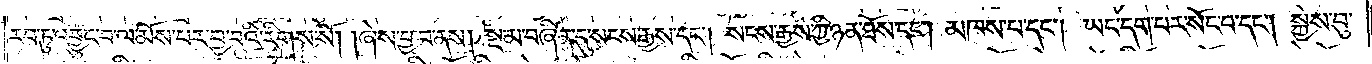རབ་ཏུ་འབྱུང་བ་ལ་མོས་པར་བྱ་བའི་རིགས་སོ། །ཞེས་བྱ་བ་ནས། སྔ་མ་བཞིན་དུ་སངས་རྒྱས་དང༌། སངས་རྒྱས་ཀྱི་ཉན་ཐོས་དང༌། མཁས་པ་དང༌། ཡང་དག་པར་སོང་བ་དང༌། སྐྱེས་བུ་
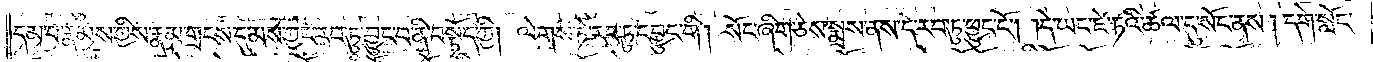དམ་པ་རྣམས་ཀྱིས་རྣམ་གྲངས་དུ་མས་ཀྱང་རབ་ཏུ་བྱུང་བ་ནི་བསྟོད་ཀྱི། ལེགས་ཏེ་རབ་ཏུ་དབྱུང་གི། སོང་ཞིག་ཅེས་སྨྲས་ནས་དེ་རབ་ཏུ་ཕྱུང་ངོ༌། །དེ་ཡང་ཛེ་ཏའི་ཚལ་དུ་སོང་ནས། དགེ་སློང་
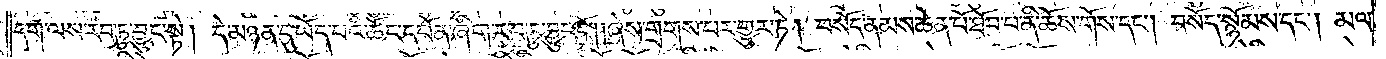དག་ལས་རབ་ཏུ་བྱུང་སྟེ། དེ་མཉན་དུ་ཡོད་པའི་ཚོང་དཔོན་ཞིག་རབ་ཏུ་བྱུང་ངོ༌། །ཞེས་གྲགས་པར་གྱུར་ཏེ། བསོད་ནམས་ཆེན་པོ་ཐོབ་པ་ནི་ཆོས་གོས་དང༌། བསོད་སྙོམས་དང༌། མལ་
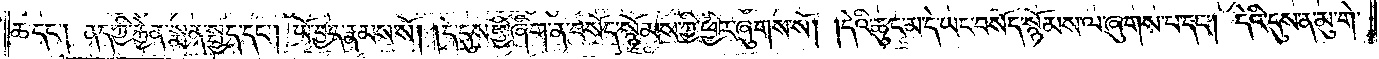ཆ་དང༌། ནད་ཀྱི་རྐྱེན་སྨན་སྤྱད་དང༌། ཡོ་བྱད་རྣམས་སོ། །དེ་དུས་ཕྱི་ཞིག་ན་བསོད་སྙོམས་ཀྱི་ཕྱིར་ཞུགས་སོ། །དེའི་ཆུང་མ་དེ་ཡང་བསོད་སྙོམས་ལ་ཞུགས་པ་དང༌། དེའི་དུས་ན་མུ་གེ་
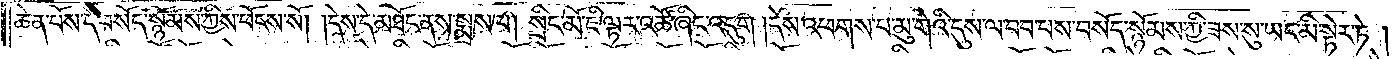ཆེན་པོས་དེ་བསོད་སྙོམས་ཀྱིས་ཕོངས་སོ། །དེས་དེ་མཐོང་ནས་སྨྲས་པ། སྲིང་མོ་ཇི་ལྟར་འཚོ་ཞིང་འདུག །དེས་འཕགས་པ་མུ་གེའི་དུས་ལ་བབ་པས་བསོད་སྙོམས་ཀྱི་ཟས་སུ་ཡང་མི་སྟེར་ཏེ།
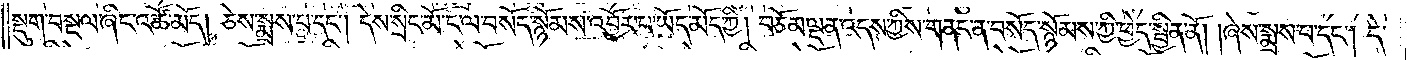སྡུག་བསྔལ་ཞིང་འཚོ་མོད། ཅེས་སྨྲས་པ་དང༌། དེས་སྲིང་མོ་ང་ལ་བསོད་སྙོམས་འབྱོར་པ་ཡོད་མོད་ཀྱི། བཅོམ་ལྡན་འདས་ཀྱིས་གནང་ན་བསོད་སྙོམས་ཀྱིས་ཕྱེད་སྦྱིན་ནོ། །ཞེས་སྨྲས་པ་དང༌། དེ་
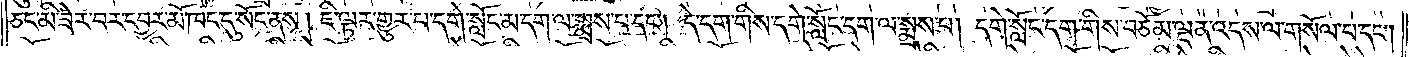ཅང་མི་ཟེར་བར་དབྱར་མོ་ཁང་དུ་སོང་ནས། ཇི་ལྟར་གྱུར་པ་དགེ་སློང་མ་དག་ལ་སྨྲས་པ་དང༌། དེ་དག་གིས་དགེ་སློང་དག་ལ་སྨྲས་པ། དགེ་སློང་དག་གིས་བཅོམ་ལྡན་འདས་ལ་གསོལ་པ་དང༌།
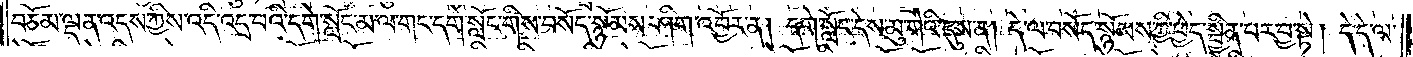བཅོམ་ལྡན་འདས་ཀྱིས་འདི་འདྲ་བའི་དགེ་སློང་མ་ལ་གང་དགེ་སློང་གིས་བསོད་སྙོམས་ཤིག་འབྱོར་ན། དགེ་སློང་དེས་མུ་གེའི་དུས་ན། དེ་ལ་བསོད་སྙོམས་ཀྱི་ཕྱེད་སྦྱིན་པར་བྱ་སྟེ། དེ་དེ་ལ་
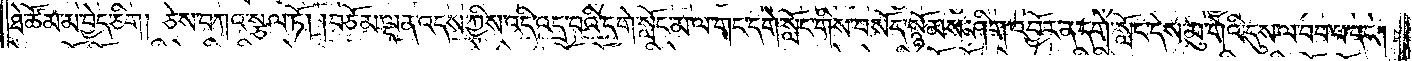ཐེ་ཚོམ་མ་བྱེད་ཅིག །ཅེས་བཀའ་སྩལ་ཏོ། །བཅོམ་ལྡན་འདས་ཀྱིས་འདི་འདྲ་བའི་དགེ་སློང་མ་ལ་གང་དགེ་སློང་གིས་བསོད་སྙོམས་ཤིག་འབྱོར་ན་དགེ་སློང་དེས་མུ་གེའི་དུས་ལ་བབ་པ་དང༌།
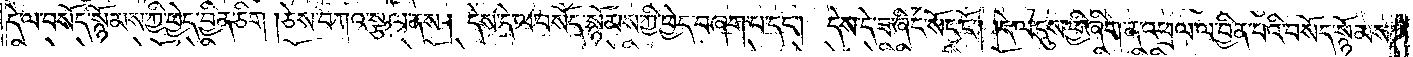དེ་ལ་བསོད་སྙོམས་ཀྱི་ཕྱེད་བྱིན་ཅིག །ཅེས་བཀའ་སྩལ་ནས། དེས་དེ་ལ་བསོད་སྙོམས་ཀྱི་ཕྱེད་བཞག་པ་དང༌། དེས་དེ་ཟ་ཞིང་སོང་ངོ༌། །དེ་ལ་དུས་ཕྱི་ཞིག་ན་འཕྲལ་ལ་བྱིན་པའི་བསོད་སྙོམས་
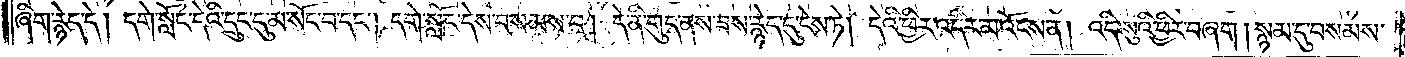ཞིག་རྙེད་དེ། དགེ་སློང་དེའི་དྲུང་དུ་མ་སོང་བ་དང༌། དགེ་སློང་དེས་བསམས་པ། དེ་ནི་གུད་ནས་ཟས་རྙེད་དུ་ངེས་ཏེ། དེའི་ཕྱིར་འདིར་མ་འོངས་ན། འདི་སུའི་ཕྱིར་བཞག །སྙམ་དུ་བསམས་
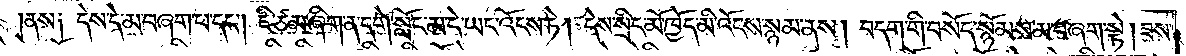ནས༑ དེས་དེ་མ་བཞག་པ་དང༌། ཇི་ཙམ་ཞིག་ན་དགེ་སློང་མ་དེ་ཡང་འོངས་ཏེ། དེས་སྲིང་མོ་ཁྱོད་མི་འོངས་སྙམ་ནས། བདག་གི་བསོད་སྙོམས་མ་བཞག་སྟེ། ཟས་
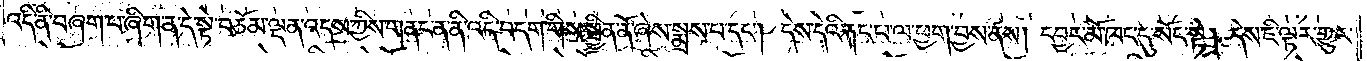འདི་ནི་བཞག་པ་ཞིག་ན་དེ་སྟེ་བཅོམ་ལྡན་འདས་ཀྱིས་གནང་ན་ནི་འདི་བདག་གིས་སྦྱིན་ནོ་ཞེས་སྨྲས་པ་དང༌། དེས་དེའི་རྐང་པ་ལ་ཕྱག་བྱས་ནས། དབྱར་མོ་ཁང་དུ་སོང་སྟེ། དེས་ཇི་ལྟར་གྱུར་
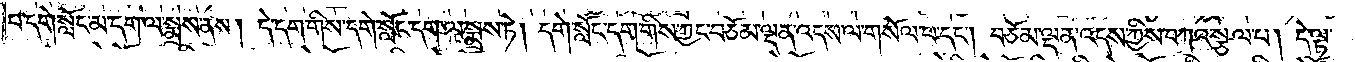པ་དགེ་སློང་མ་དག་ལ་སྨྲས་ནས། དེ་དག་གིས་དགེ་སློང་དག་ལ་སྨྲས་ཏེ། དགེ་སློང་དག་གིས་ཀྱང་བཅོམ་ལྡན་འདས་ལ་གསོལ་པ་དང༌། བཅོམ་ལྡན་འདས་ཀྱིས་བཀའ་སྩལ་པ། དེ་ལྟ་
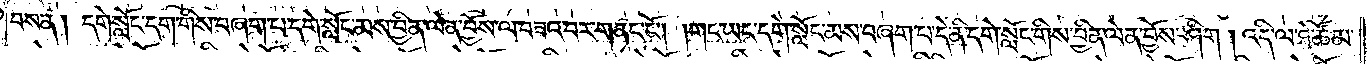བས་ན། དགེ་སློང་དག་གིས་བཞག་པ་དགེ་སློང་མས་བྱིན་ལེན་བྱོས་ལ་བཟའ་བར་གནང་ངོ༌། །གང་ཡང་དགེ་སློང་མས་བཞག་པ་དེ་ནི་དགེ་སློང་གིས་བྱིན་ལེན་བྱོས་ཤིག །འདི་ལ་ཐེ་ཚོམ་
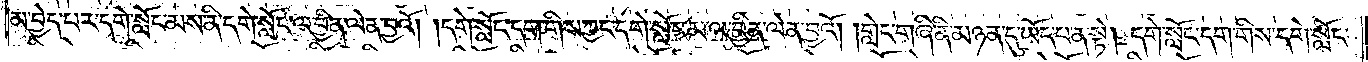མ་བྱེད་པར་དགེ་སློང་མས་ནི་དགེ་སློང་ལ་བྱིན་ལེན་བྱའོ། །དགེ་སློང་དག་གིས་ཀྱང་དགེ་སློང་མ་ལ་བྱིན་ལེན་བྱའོ། །གླེང་གཞི་ནི་མཉན་དུ་ཡོད་པ་ན་སྟེ། དགེ་སློང་དག་གིས་དགེ་སློང་
